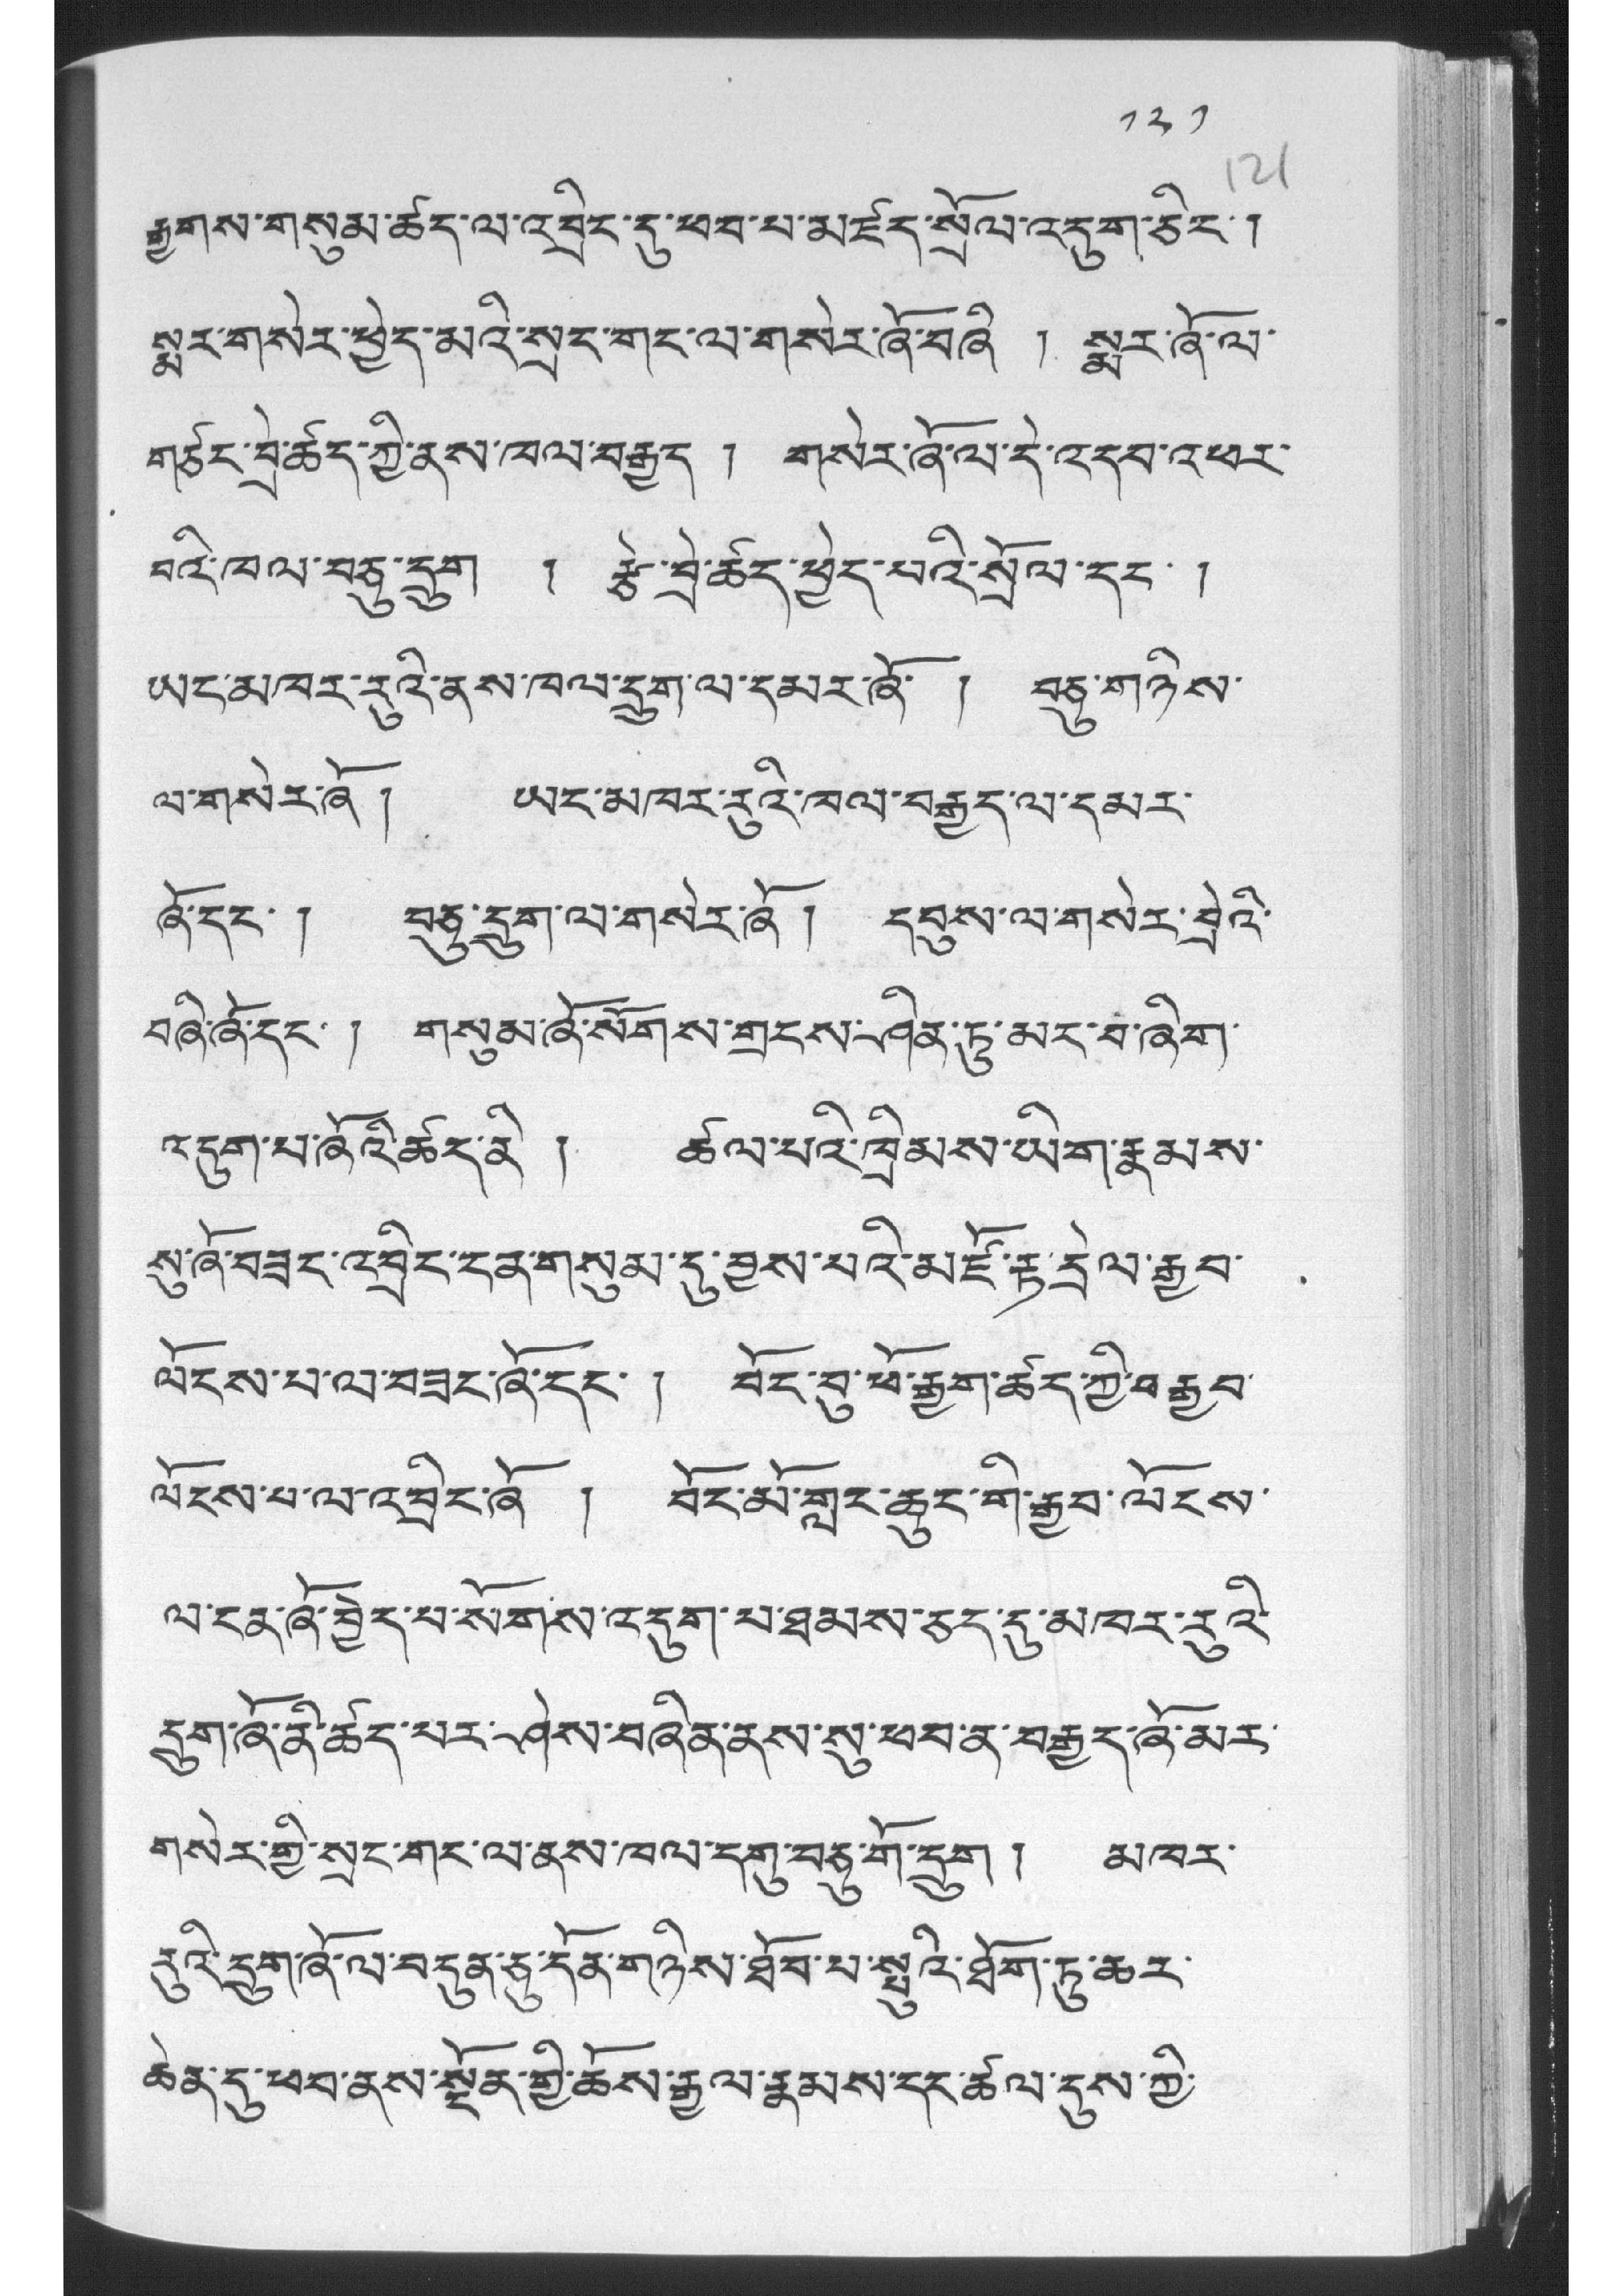༡༢༡
རྒྱགས་གསུམ་ཚད་ལ་འབྲིང་དུ་ཕབ་པ་མཛད་སྲོལ་འདུག་ཅིང་།
སྨར་གསེར་ཕྱེད་མའི་སྲང་གང་ལ་གསེར་ཞོ་བཞི ། སྨར་ཞོ་ལ་
གཙང་བྲེ་ཚད་ཀྱི་ནས་ཁལ་བརྒྱད ། གསེར་ཞོ་ལ་དེ་འདབ་འཕར་
བའི་ཁལ་བཅུ་དྲུག ། རྩེ་བྲེ་ཚད་ཕྱེད་པའི་སྲོལ་དང་ །
ཡང་མཁར་རུའི་ནས་ཁལ་དྲུག་ལ་དམར་ཞོ་ ། བཅུ་གཉིས་
ལ་གསེར་ཞོ ། ཡང་མཁར་རུའི་ཁལ་བརྒྱད་ལ་དམར་
ཞོ་དང་། བཅུ་དྲུག་ལ་གསེར་ཞོ། དབུས་ལ་གསེར་བྲེའི་
བཞི་ནོ་དང་། གསུམ་ཞོ་སོགས་གྲངས་ཤིན་ཏུ་མར་བ་ཞིག་
འདུག་པ་ཞོའི་ཚད་ནི ། ཚལ་པའི་ཁྲིམས་ཡིག་རྣམས་
སུ་ཞོ་བཟང་འབྲིང་ངན་གསུམ་དུ་བྱས་པའི་མཛོ་རྟ་དྲེལ་རྒྱབ་
ལོངས་པ་ལ་བཟང་ཞོ་དང་ ། བོང་བུ་ཕོ་རྒྱག་ཚད་ཀྱི་བརྒྱབ་
ལོངས་པ་ལ་འབྲིང་ཞོ ། བོང་མོ་གླང་ཆུང་གི་རྒྱབ་ལོངས་
ལ་ངན་ཞོ་བྱེད་པ་སོགས་འདུག་པ་ཐམས་ཅད་དུ་མཁར་རུའི་
དྲུག་ཞོ་ནི་ཚད་པར་ཤེས་བཞིན་ནས་སུ་ཕབ་ན་བརྒྱད་ཞོ་མར་
གསེར་གྱི་སྲང་གང་ལ་ནས་ཁལ་དགུ་བཅུ་གོ་དྲུག ། མཁར་
རུའི་དྲུག་ཞོ་ལ་བདུན་ཅུ་དོན་གཉིས་ཐོབ་པ་སྤུའི་ཐོག་ཏུ་ཆར་
ཆེན་དུ་ཕབ་ནས་སྔོན་གྱི་ཆོས་རྒྱལ་རྣམས་དང་ཚལ་དུས་ཀྱི་
